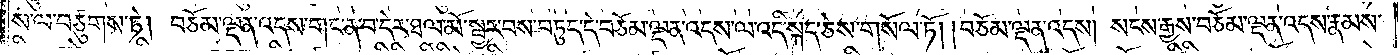ས་ལ་བཙུགས་ཏེ། བཅོམ་ལྡན་འདས་གང་ན་བ་དེར་ཐལ་མོ་སྦྱར་བས་བཏུད་དེ་བཅོམ་ལྡན་འདས་ལ་འདི་སྐད་ཅེས་གསོལ་ཏོ། །བཅོམ་ལྡན་འདས། སངས་རྒྱས་བཅོམ་ལྡན་འདས་རྣམས་
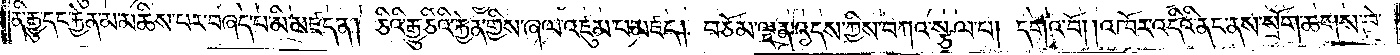ནི་རྒྱུ་དང་རྐྱེན་མ་མཆིས་པར་བཞད་པ་མི་མཛད་ན། ཅིའི་རྒྱུ་ཅིའི་རྐྱེན་གྱིས་ཞལ་འཛུམ་པ་མཛད། བཅོམ་ལྡན་འདས་ཀྱིས་བཀའ་སྩལ་པ། དགའ་བོ། འཁོར་འདིའི་ནང་ནས་སྲོག་ཆགས་བྱེ་
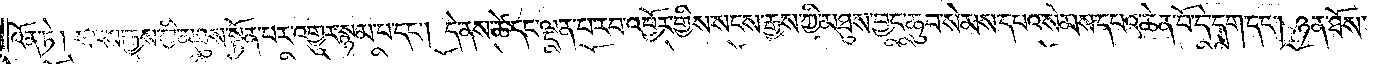འོན་ཏེ། སངས་རྒྱས་ཀྱི་མཐུས་སྟོན་པར་འགྱུར་སྙམ་པ་དང༌། དེ་ནས་ཚེ་དང་ལྡན་པ་རབ་འབྱོར་གྱིས་སངས་རྒྱས་ཀྱི་མཐུས་བྱང་ཆུབ་སེམས་དཔའ་སེམས་དཔའ་ཆེན་པོ་དེ་དག་དང༌། ཉན་ཐོས་
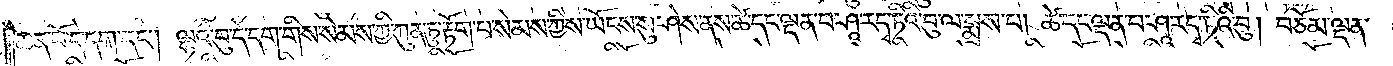ཆེན་པོ་དེ་དག་དང༌། ལྷའི་བུ་དེ་དག་གིས་སེམས་ཀྱི་ཀུན་ཏུ་རྟོག་པ་སེམས་ཀྱིས་ཡོངས་སུ་ཤེས་ནས་ཚེ་དང་ལྡན་པ་ཤཱ་ར་དྭ་ཏིའི་བུ་ལ་སྨྲས་པ། ཚེ་དང་ལྡན་པ་ཤཱ་ར་དྭ་ཏིའི་བུ། བཅོམ་ལྡན་
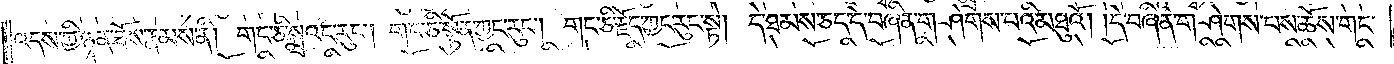འདས་ཀྱི་ཉན་ཐོས་རྣམས་ནི། གང་ཅི་སྨྲའང་རུང༌། གང་ཅི་སྟོན་ཀྱང་རུང༌། གང་ཅི་རྗོད་ཀྱང་རུང་སྟེ། དེ་ཐམས་ཅད་དེ་བཞིན་གཤེགས་པའི་མཐུའོ། །དེ་བཞིན་གཤེགས་པས་ཆོས་གང་
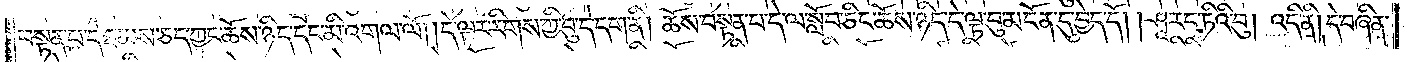བསྟན་པ་དེ་ཐམས་ཅད་ཀྱང་ཆོས་ཉིད་དང་མི་འགལ་ལོ། །དེ་ལྟར་རིགས་ཀྱི་བུ་དེ་དག་ནི། ཆོས་བསྟན་པ་དེ་ལ་སློབ་ཅིང་ཆོས་ཉིད་དེ་ལྟ་བུ་མངོན་དུ་བྱེད་དོ། །ཤཱ་ར་དྭ་ཏིའི་བུ། འདི་ནི། དེ་བཞིན་
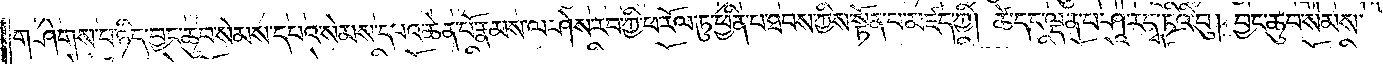གཤེགས་པ་ཉིད་བྱང་ཆུབ་སེམས་དཔའ་སེམས་དཔའ་ཆེན་པོ་རྣམས་ལ་ཤེས་རབ་ཀྱི་ཕ་རོལ་ཏུ་ཕྱིན་པ་ཐབས་ཀྱིས་སྟོན་པ་མཛད་ཀྱི། ཚེ་དང་ལྡན་པ་ཤཱ་ར་དྭ་ཏིའི་བུ། བྱང་ཆུབ་སེམས་
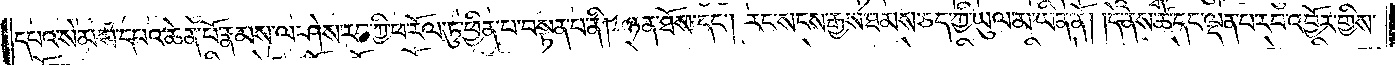དཔའ་སེམས་དཔའ་ཆེན་པོ་རྣམས་ལ་ཤེས་རབ་ཀྱི་ཕ་རོལ་ཏུ་ཕྱིན་པ་བསྟན་པ་ནི། ཉན་ཐོས་དང༌། རང་སངས་རྒྱས་ཐམས་ཅད་ཀྱི་ཡུལ་མ་ཡིན་ནོ། །དེ་ནས་ཚེ་དང་ལྡན་པ་རབ་འབྱོར་གྱིས་
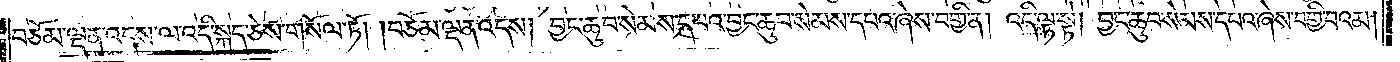བཅོམ་ལྡན་འདས་ལ་འདི་སྐད་ཅེས་གསོལ་ཏོ། །བཅོམ་ལྡན་འདས། བྱང་ཆུབ་སེམས་དཔའ་བྱང་ཆུབ་སེམས་དཔའ་ཞེས་བགྱི་ན། འདི་ལྟ་སྟེ། བྱང་ཆུབ་སེམས་དཔའ་ཞེས་བགྱི་བའམ།
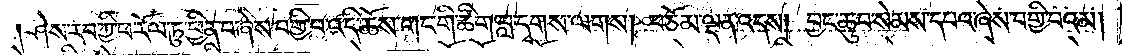ཤེས་རབ་ཀྱི་ཕ་རོལ་ཏུ་ཕྱིན་པ་ཞེས་བགྱི་བ་འདི་ཆོས་གང་གི་ཚིག་བླ་དྭགས་ལགས། བཅོམ་ལྡན་འདས། བྱང་ཆུབ་སེམས་དཔའ་ཞེས་བགྱི་བའམ།
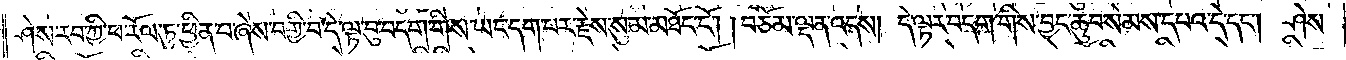ཤེས་རབ་ཀྱི་ཕ་རོལ་ཏུ་ཕྱིན་པ་ཞེས་བགྱི་བ་དེ་ལྟ་བུ་བདག་གིས་ཡང་དག་པར་རྗེས་སུ་མ་མཐོང་ངོ༌། །བཅོམ་ལྡན་འདས། དེ་ལྟར་བདག་གིས་བྱང་ཆུབ་སེམས་དཔའ་དེ་དང༌། ཤེས་
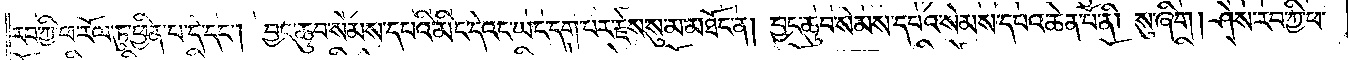རབ་ཀྱི་ཕ་རོལ་ཏུ་ཕྱིན་པ་དེ་དང༌། བྱང་ཆུབ་སེམས་དཔའི་མིང་དེའང་ཡང་དག་པར་རྗེས་སུ་མ་མཐོང་ན། བྱང་ཆུབ་སེམས་དཔའ་སེམས་དཔའ་ཆེན་པོ་ནི། སུ་ཞིག། ཤེས་རབ་ཀྱི་ཕ་
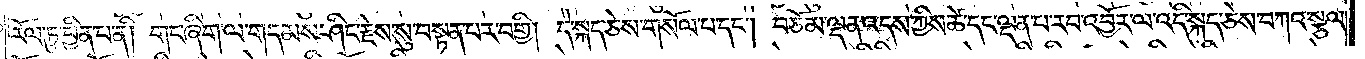རོལ་ཏུ་ཕྱིན་པ་ནི། གང་ཞིག་ལ་གདམས་ཤིང་རྗེས་སུ་བསྟན་པར་བགྱི། དེ་སྐད་ཅེས་གསོལ་པ་དང༌། བཅོམ་ལྡན་འདས་ཀྱིས་ཚེ་དང་ལྡན་པ་རབ་འབྱོར་ལ་འདི་སྐད་ཅེས་བཀའ་སྩལ་
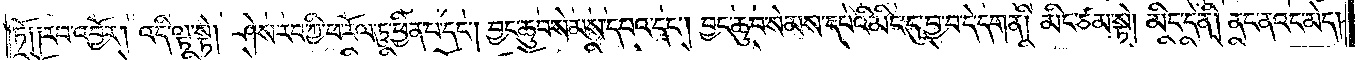ཏོ༑ ༑རབ་འབྱོར། འདི་ལྟ་སྟེ། ཤེས་རབ་ཀྱི་ཕ་རོལ་ཏུ་ཕྱིན་པ་དང༌། བྱང་ཆུབ་སེམས་དཔའ་དང༌། བྱང་ཆུབ་སེམས་དཔའི་མིང་དུ་བྱ་བ་དེ་དག་ནི། མིང་ཙམ་སྟེ། མིང་དེ་ནི། ནང་ནའང་མེད།
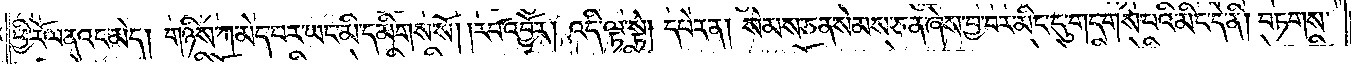ཕྱི་རོལ་ནའང་མེད། གཉིས་ཀ་མེད་པར་ཡང་མི་དམིགས་སོ། །རབ་འབྱོར། འདི་ལྟ་སྟེ། དཔེར་ན། སེམས་ཅན་སེམས་ཅན་ཞེས་བྱ་བར་མིང་དུ་གདགས་པའི་མིང་དེ་ནི། བཏགས་
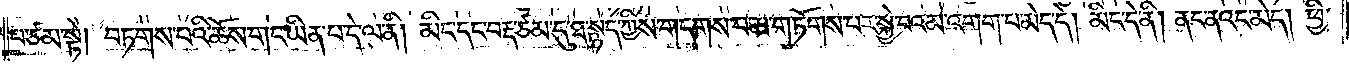པ་ཙམ་སྟེ། བཏགས་པའི་ཆོས་གང་ཡིན་པ་དེ་ལ་ནི། མིང་དང་བརྡ་ཙམ་དུ་ཐ་སྙད་ཀྱིས་གདགས་པ་མ་གཏོགས་པར་སྐྱེ་བའམ་འགག་པ་མེད་དེ། མིང་དེ་ནི། ནང་ནའང་མེད། ཕྱི་
